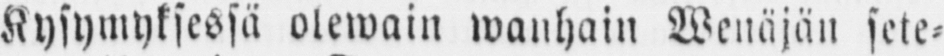Kysymyksessä olewain wanhain Wenäjän sete-
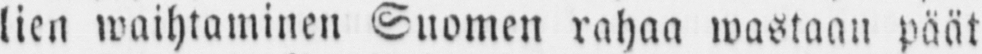lien waihtaminen Suomen rahaa wastaan päät-
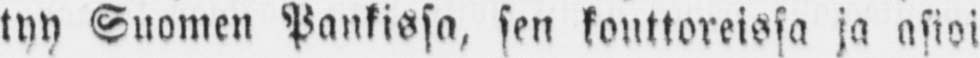tyy Suomen Pankissa, sen konttoreissa ja asioi-
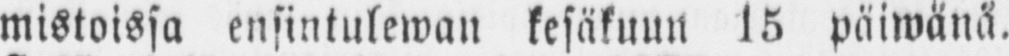Mistoissa ensintulewan kesäkuun 15 päiwänä.
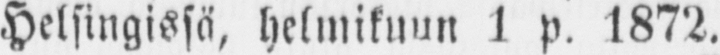Helsingissä, helmikuun 1 p. 1872.
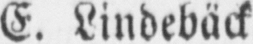E. Lindebäck.
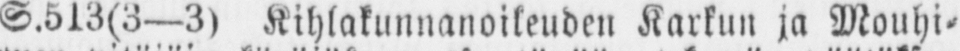S.513(3 —3) Kihlakunnanoikeuden Karkun ja Mouhi-
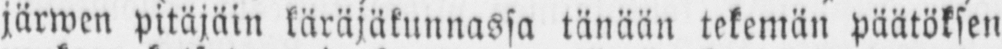järwen pitäjäin käräjäkunnassa tänään tekemän päätöksen
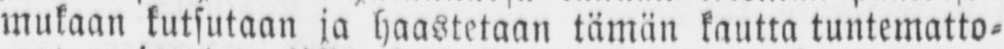mukaan kutsutaan ja haastetaan tämän kautta tuntematto-
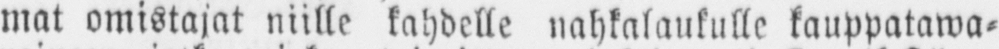mat omistajat niille kahdelle nahkalaukulle kauppatawa-
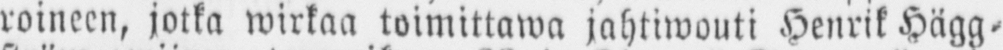roineen, jotka wirkaa toimittawa jahtiwouti Henrik Hägg-
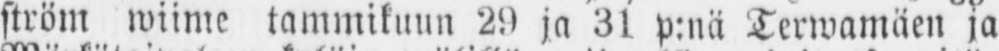ström wiime tammikuun 29 ja 3k p:nä Terwamäen ja
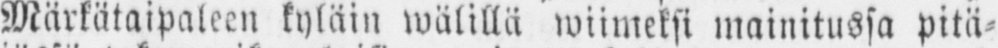Märkätaipaleen kyläin wälillä wiimeksi mainitussa pitä-
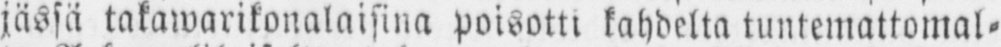jässä takawarikonalaisina poisotti kahdelta tuntemattomal-
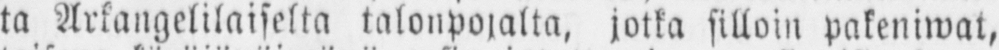ta Arkangelilaiselta talonpojalta, jotka silloin pakeniwat,
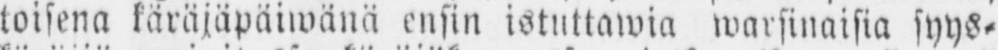toisena käräjäpäwänä ensin istuttawia warsinaisia syys-
